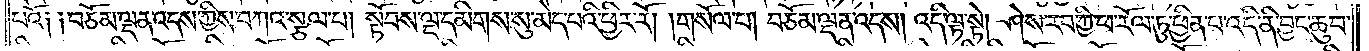པའོ༑ ༑བཅོམ་ལྡན་འདས་ཀྱིས་བཀའ་སྩལ་པ། སྟོབས་ལྔ་དམིགས་སུ་མེད་པའི་ཕྱིར་རོ། །གསོལ་པ། བཅོམ་ལྡན་འདས། འདི་ལྟ་སྟེ། ཤེས་རབ་ཀྱི་ཕ་རོལ་ཏུ་ཕྱིན་པ་འདི་ནི་བྱང་ཆུབ་
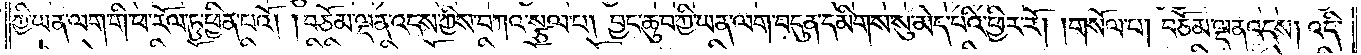ཀྱི་ཡན་ལག་གི་ཕ་རོལ་ཏུ་ཕྱིན་པའོ། །བཅོམ་ལྡན་འདས་ཀྱིས་བཀའ་སྩལ་པ། བྱང་ཆུབ་ཀྱི་ཡན་ལག་བདུན་དམིགས་སུ་མེད་པའི་ཕྱིར་རོ། །གསོལ་པ། བཅོམ་ལྡན་འདས། འདི་
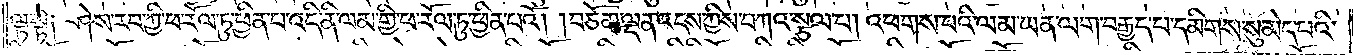ལྟ་སྟེ༑ ཤེས་རབ་ཀྱི་ཕ་རོལ་ཏུ་ཕྱིན་པ་འདི་ནི་ལམ་གྱི་ཕ་རོལ་ཏུ་ཕྱིན་པའོ། །བཅོམ་ལྡན་འདས་ཀྱིས་བཀའ་སྩལ་པ། འཕགས་པའི་ལམ་ཡན་ལག་བརྒྱད་པ་དམིགས་སུ་མེད་པའི་
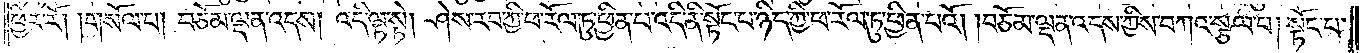ཕྱིར་རོ། །གསོལ་པ། བཅོམ་ལྡན་འདས། འདི་ལྟ་སྟེ། ཤེས་རབ་ཀྱི་ཕ་རོལ་ཏུ་ཕྱིན་པ་འདི་ནི་སྟོང་པ་ཉིད་ཀྱི་ཕ་རོལ་ཏུ་ཕྱིན་པའོ། །བཅོམ་ལྡན་འདས་ཀྱིས་བཀའ་སྩལ་པ། སྟོང་པ་
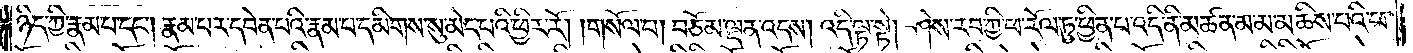ཉིད་ཀྱི་རྣམ་པ་དང༌། རྣམ་པར་དབེན་པའི་རྣམ་པ་དམིགས་སུ་མེད་པའི་ཕྱིར་རོ། །གསོལ་པ། བཅོམ་ལྡན་འདས། འདི་ལྟ་སྟེ། ཤེས་རབ་ཀྱི་ཕ་རོལ་ཏུ་ཕྱིན་པ་འདི་ནི་མཚན་མ་མ་མཆིས་པའི་ཕ་
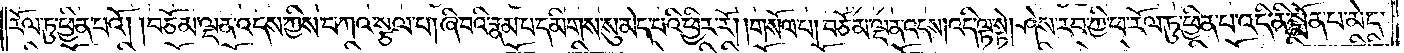རོལ་ཏུ་ཕྱིན་པའོ། །བཅོམ་ལྡན་འདས་ཀྱིས་བཀའ་སྩལ་པ། ཞི་བའི་རྣམ་པ་དམིགས་སུ་མེད་པའི་ཕྱིར་རོ། །གསོལ་པ། བཅོམ་ལྡན་འདས།འདི་ལྟ་སྟེ། ཤེས་རབ་ཀྱི་ཕ་རོལ་ཏུ་ཕྱིན་པ་འདི་ནི་སྨོན་པ་མེད་
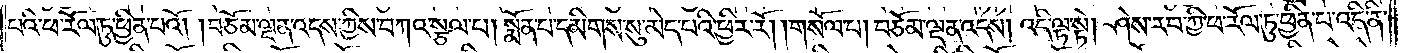པའི་ཕ་རོལ་ཏུ་ཕྱིན་པའོ། །བཅོམ་ལྡན་འདས་ཀྱིས་བཀའ་སྩལ་པ། སྨོན་པ་དམིགས་སུ་མེད་པའི་ཕྱིར་རོ། །གསོལ་པ། བཅོམ་ལྡན་འདས། འདི་ལྟ་སྟེ། ཤེས་རབ་ཀྱི་ཕ་རོལ་ཏུ་ཕྱིན་པ་འདི་ནི་
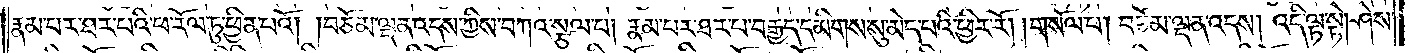རྣམ་པར་ཐར་པའི་ཕ་རོལ་ཏུ་ཕྱིན་པའོ། །བཅོམ་ལྡན་འདས་ཀྱིས་བཀའ་སྩལ་པ། རྣམ་པར་ཐར་པ་བརྒྱད་དམིགས་སུ་མེད་པའི་ཕྱིར་རོ། །གསོལ་པ། བཅོམ་ལྡན་འདས། འདི་ལྟ་སྟེ། ཤེས་
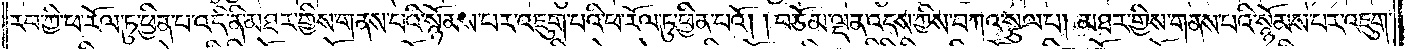རབ་ཀྱི་ཕ་རོལ་ཏུ་ཕྱིན་པ་འདི་ནི་མཐར་གྱིས་གནས་པའི་སྙོམས་པར་འཇུག་པའི་ཕ་རོལ་ཏུ་ཕྱིན་པའོ། །བཅོམ་ལྡན་འདས་ཀྱིས་བཀའ་སྩལ་པ། མཐར་གྱིས་གནས་པའི་སྙོམས་པར་འཇུག་
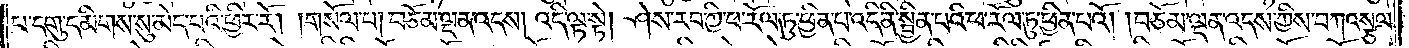པ་དགུ་དམིགས་སུ་མེད་པའི་ཕྱིར་རོ། །གསོལ་པ། བཅོམ་ལྡན་འདས། འདི་ལྟ་སྟེ། ཤེས་རབ་ཀྱི་ཕ་རོལ་ཏུ་ཕྱིན་པ་འདི་ནི་སྦྱིན་པའི་ཕ་རོལ་ཏུ་ཕྱིན་པའོ། །བཅོམ་ལྡན་འདས་ཀྱིས་བཀའ་སྩལ་
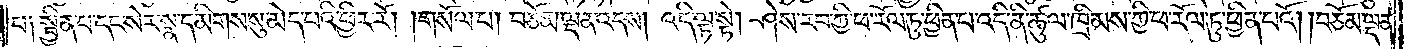པ༑ སྦྱིན་པ་དང་སེར་སྣ་དམིགས་སུ་མེད་པའི་ཕྱིར་རོ། །གསོལ་པ། བཅོམ་ལྡན་འདས། འདི་ལྟ་སྟེ། ཤེས་རབ་ཀྱི་ཕ་རོལ་ཏུ་ཕྱིན་པ་འདི་ནི་ཚུལ་ཁྲིམས་ཀྱི་ཕ་རོལ་ཏུ་ཕྱིན་པའོ། །བཅོམ་ལྡན་
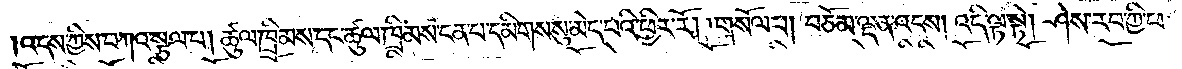འདས་ཀྱིས་བཀའ་སྩལ་པ། ཚུལ་ཁྲིམས་དང་ཚུལ་ཁྲིམས་ངན་པ་དམིགས་སུ་མེད་པའི་ཕྱིར་རོ། །གསོལ་པ། བཅོམ་ལྡན་འདས། འདི་ལྟ་སྟེ། ཤེས་རབ་ཀྱི་ཕ་
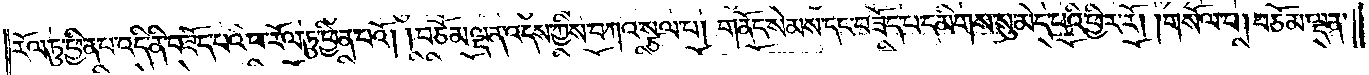རོལ་ཏུ་ཕྱིན་པ་འདི་ནི་བཟོད་པའི་ཕ་རོལ་ཏུ་ཕྱིན་པའོ། །བཅོམ་ལྡན་འདས་ཀྱིས་བཀའ་སྩལ་པ། གནོད་སེམས་དང་བཟོད་པ་དམིགས་སུ་མེད་པའི་ཕྱིར་རོ། །གསོལ་པ། བཅོམ་ལྡན་
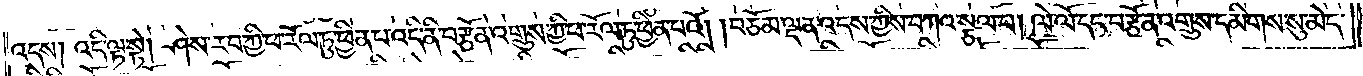འདས། འདི་ལྟ་སྟེ། ཤེས་རབ་ཀྱི་ཕ་རོལ་ཏུ་ཕྱིན་པ་འདི་ནི་བརྩོན་འགྲུས་ཀྱི་ཕ་རོལ་ཏུ་ཕྱིན་པའོ། །བཅོམ་ལྡན་འདས་ཀྱིས་བཀའ་སྩལ་པ། ལེ་ལོ་དང་བརྩོན་འགྲུས་དམིགས་སུ་མེད་
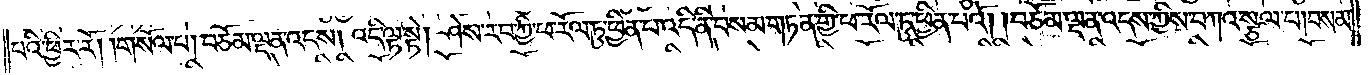པའི་ཕྱིར་རོ། །གསོལ་པ། བཅོམ་ལྡན་འདས། འདི་ལྟ་སྟེ། ཤེས་རབ་ཀྱི་ཕ་རོལ་ཏུ་ཕྱིན་པ་འདི་ནི་བསམ་གཏན་གྱི་ཕ་རོལ་ཏུ་ཕྱིན་པའོ། །བཅོམ་ལྡན་འདས་ཀྱིས་བཀའ་སྩལ་པ། བསམ་
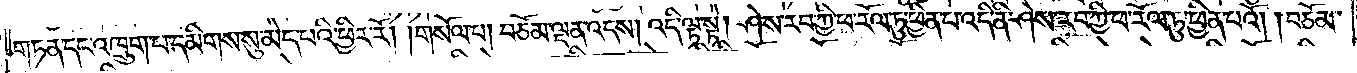གཏན་དང་འཁྲུག་པ་དམིགས་སུ་མེད་པའི་ཕྱིར་རོ། །གསོལ་པ། བཅོམ་ལྡན་འདས། འདི་ལྟ་སྟེ། ཤེས་རབ་ཀྱི་ཕ་རོལ་ཏུ་ཕྱིན་པ་འདི་ནི་ཤེས་རབ་ཀྱི་ཕ་རོལ་ཏུ་ཕྱིན་པའོ། །བཅོམ་
